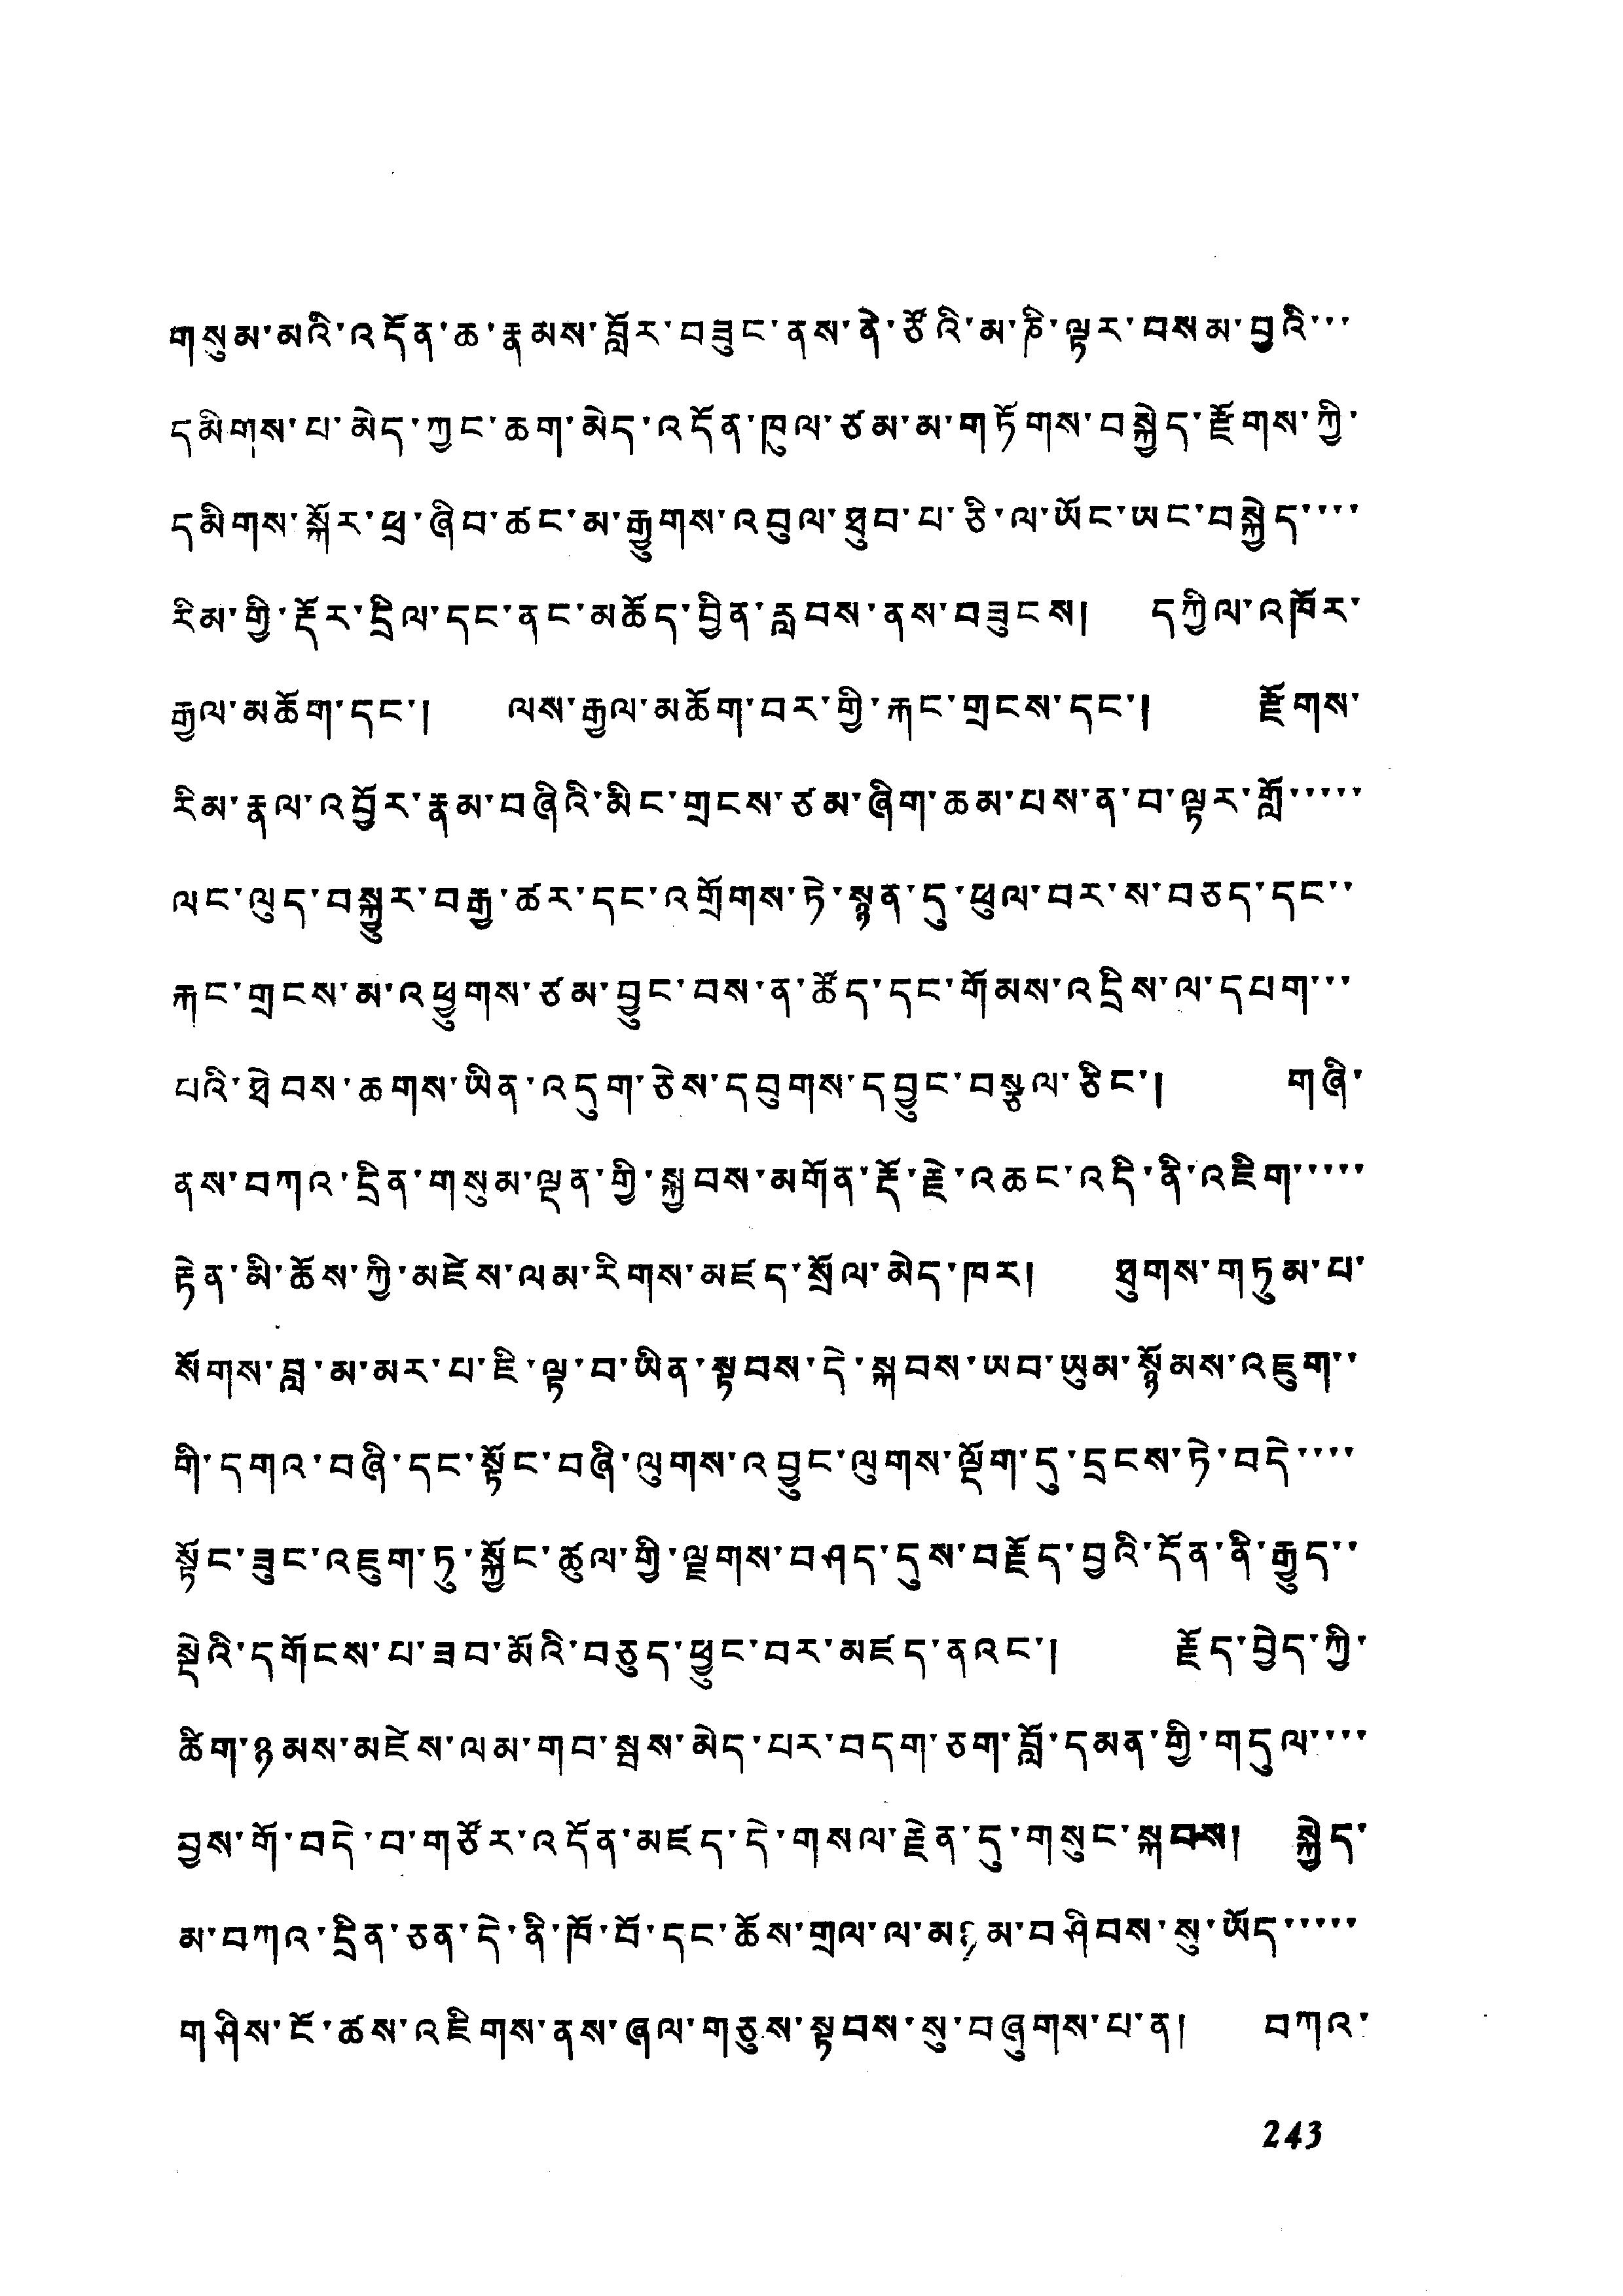གསུམ་མའི་འདོན་ཆ་རྣམས་བློར་བཟུང་ནས་ནེ་ཙོའི་མ་ཎི་ལྟར་བསམ་བྱའི་་་
དམིགས་པ་མེད་ཀྱང་ཆག་མེད་འདོན་ཁུལ་ཙམ་མ་གཏོགས་བསྐྱེད་རྫོགས་ཀྱི་
དམིགས་སྐོར་ཕྲ་ཞིབ་ཚང་མ་རྒྱུགས་འབུལ་ཐུབ་པ་ཅི་ལ་ཡོང་ཡང་བསྐྱེད་་་་
རིམ་གྱི་རྡོར་དྲིལ་དང་ནང་མཆོད་བྱིན་རླབས་ནས་བཟུངས། དཀྱིལ་འཁོར་
རྒྱལ་མཆོག་དང་། ལས་རྒྱལ་མཆོག་བར་གྱི་རྐང་གྲངས་དང་། རྫོགས་
རིམ་རྣལ་འབྱོར་རྣམ་བཞིའི་མིང་གྲངས་ཙམ་ཞིག་ཆམ་པས་ན་བ་ལྟར་གློ་་་་་
ལང་ལུད་བསྐྱུར་བརྒྱ་ཚར་དང་འགྲོགས་ཏེ་སྙན་དུ་ཕུལ་བར་ས་བཅད་དང་་
རྐང་གྲངས་མ་འཕྱུགས་ཙམ་བྱུང་བས་ན་ཚོད་དང་གོམས་འདྲིས་ལ་དཔག་་་
པའི་ཐེབས་ཆགས་ཡིན་འདུག་ཅེས་དབུགས་དབྱུང་བསྩལ་ཅིང་། གཞི་
ནས་བཀའ་དྲིན་གསུམ་ལྡན་གྱི་སྐྱབས་མགོན་རྡོ་རྗེ་འཆང་འདི་ནི་འཇིག་་་་་
རྟེན་མི་ཆོས་ཀྱི་མཛེས་ལམ་རིགས་མཛད་སྲོལ་མེད་ཁར། ཐུགས་གཏུམ་པ་
སོགས་བླ་མ་མར་པ་ཇི་ལྟ་བ་ཡིན་སྟབས་དེ་སྐབས་ཡབ་ཡུམ་སྙོམས་འཇུག་་
གི་དགའ་བཞི་དང་སྟོང་བཞི་ལུགས་འབྱུང་ལུགས་ལྡོག་དུ་དྲངས་ཏེ་བདེ་་་་
སྟོང་ཟུང་འཇུག་ཏུ་སྐྱོང་ཚུལ་གྱི་ལྗགས་བཤད་དུས་བརྗོད་བྱའི་དོན་ནི་རྒྱུད་་
སྡེའི་དགོངས་པ་ཟབ་མོའི་བཅུད་ཕྱུང་བར་མཛད་ནའང་། རྗོད་བྱེད་ཀྱི་
ཚིག་ཉམས་མཛེས་ལམ་གབ་སྦས་མེད་པར་བདག་ཅག་བློ་དམན་གྱི་གདུལ་་་་
བྱས་གོ་བདེ་བ་གཙོར་འདོན་མཛད་དེ་གསལ་རྗེན་དུ་གསུང་སྐབས། སྐྱེད་
མ་བཀའ་དྲིན་ཅན་དེ་ནི་ཁོ་བོ་དང་ཆོས་གྲལ་མཉམ་བཤིབས་སུ་ཡོད་་་་་
གཤིས་ངོ་ཚས་འཇིགས་ནས་ཞལ་གཅུས་སྟབས་སུ་བཞུགས་པ་ན། བཀའ་
243
